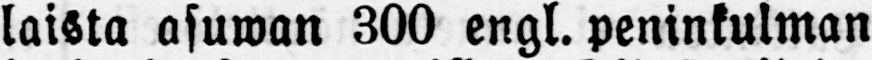laista asuwan 300 engl. peninkulman
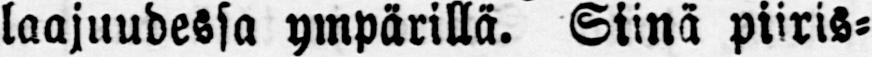laajuudessa ympärillä. Siinä piiris-
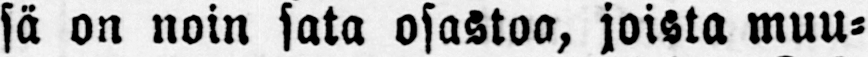sä on noin sata osastoa, joista muu-
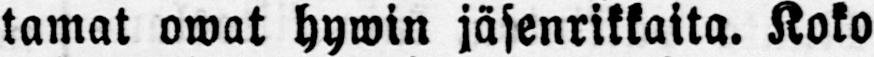tamat owat hywin jäsenrikkaita. Koko
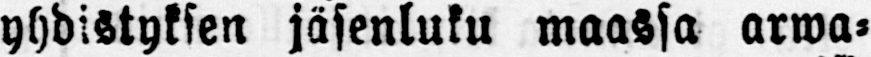yhdistyksen jäsenluku maassa arwa-
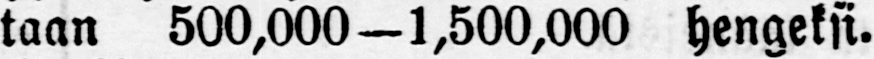taan 500,000—1,500,000 hengeksi.
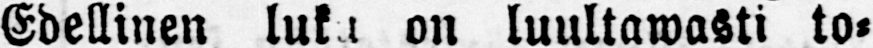Edellinen luku on luultawasti to-
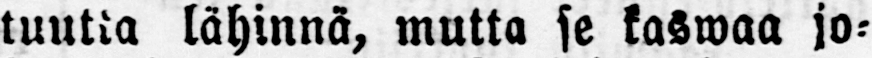tuutta lähinnä, mutta se kaswaa jo-
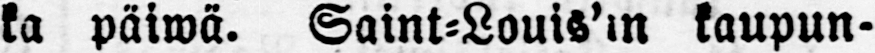ka päiwä. Saint-Louis'in kaupun-
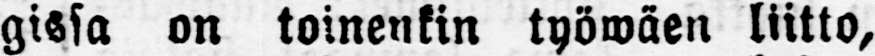gissa on toinenkin työwäen liitto,
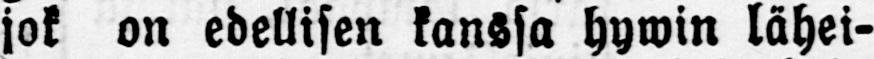jok on edellisen kanssa hyvin lähei-
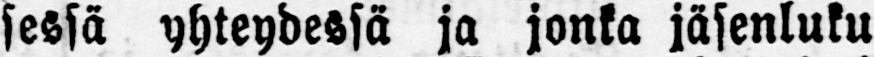sessä yhteydessä ja jonka jäsenluku
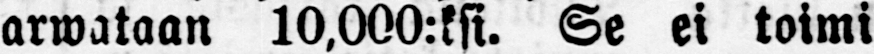arwataan 10,000:ksi. Se ei toimi
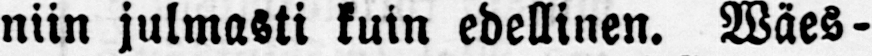niin julmasti kuin edellinen. Wäes-
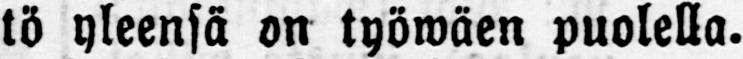tö yleensä on työwäen puolella.
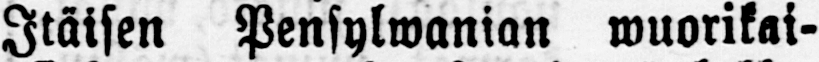Itäisen Pensylwanian wuorikai-
